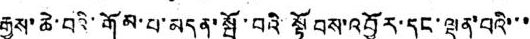རྒྱས་ཆེ་བའི་གོམ་པ་མདུན་སྤོ་བའི་སྟོབས་འབྱོར་དང་ལྡན་པའི་་་
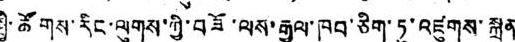སྤྱི་ཚོགས་རིང་ལུགས་ཀྱི་བཟོ་ལས་རྒྱལ་ཁབ་ཅིག་ཏུ་འཛུགས་སྐྲུན་
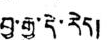བྱ་རྒྱུ་དེ་རེད།
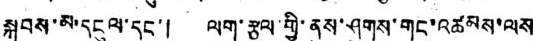སྐབས་མ་དངུལ་དང་། ལག་རྩལ་གྱི་ནུས་ཤུགས་གང་འཚབས་ལས
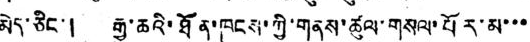མེད་ཅིང་། རྒྱུ་ཆའི་ཐོན་ཁུངས་ཀྱི་གནས་ཚུལ་གསལ་པོར་མ་་་
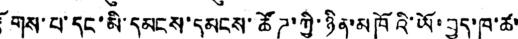རྟོགས་པ་དང་མི་དམངས་དམངས་ཚོཊ་ཀྱི་ཉིན་མཁོའི་ཡོ་བྱད་ཁ་ཚ་
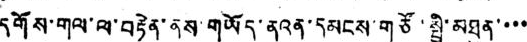དགོས་གལ་ལ་བརྟེན་ནས་གཡོད་ནའན་དམངས་གཙོ་སྤྱི་མཐུན་་་་
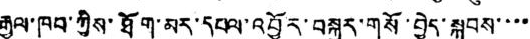རྒྱལ་ཁབ་ཀྱིས་ཐོག་མར་དཔལ་འབྱོར་བསྐྱར་གསོ་བྱེད་སྐབས་་་་
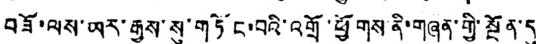བཟོ་ལས་ཡར་རྒྱས་སུ་གཏོང་བའི་འགྲོ་ཕྱོགས་ནི་གཞན་གྱི་སྔོན་དུ
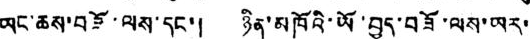ཡང་ཆས་བཟོ་ལས་དང་། ཡིན་མཁོའི་ཡོ་བྱད་བཟོ་ལས་ཡར་
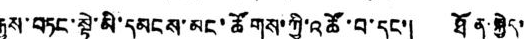རྒྱས་བཏང་སྟེ་མི་དམངས་མང་ཚོགས་ཀྱི་འཚོ་བ་དང་། ཐོན་སྐྱེད་
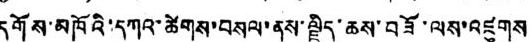དགོས་མཁོའི་དཀའ་ཚེགས་བསལ་ནས་ལྗིད་ཆས་བཟོ་ལས་འཛུགས
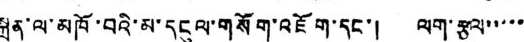སྐྲུན་ལ་མཁོ་བའི་མ་དངུལ་གསོག་འཇོག་དང་། ལག་རྩལ་་་་་
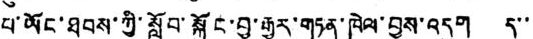པ་ཡོང་ཐབས་ཀྱི་སློབ་སྐྱོང་བྱ་རྒྱུར་གཏན་ཁེལ་བྱས་འདུག ད་་
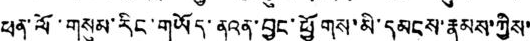ཕན་ལོ་གསུམ་རིང་གཡོད་ནའན་བྱང་ཕྱོགས་མི་དམངས་རྣམས་ཀྱིས་
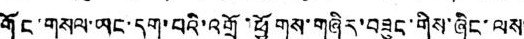གོང་གསལ་ཡང་དག་པའི་འགྲོ་ཕྱོགས་གཞིར་བཟུང་གིས་ཞིང་ལས་
